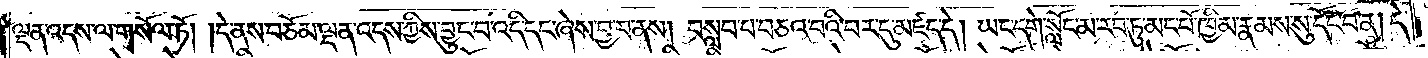ལྡན་འདས་ལ་གསོལ་ཏོ། །དེ་ནས་བཅོམ་ལྡན་འདས་ཀྱིས་བྱུང་བ་འདི་དང་ཞེས་བྱ་བ་ནས། བསླབ་པ་བཅའ་བའི་བར་དུ་མཛད་དེ། ཡང་དགེ་སློང་མ་རབ་ཏུ་མང་པོ་ཁྱིམ་རྣམས་སུ་དོང་བ་ན། དེ་
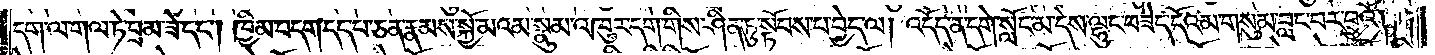དག་ལ་གལ་ཏེ་བྲམ་ཟེ་དང༌། ཁྱིམ་བདག་དད་པ་ཅན་རྣམས་སྐྱོ་མའམ་སྣུམ་འཁུར་དག་གིས་ཤིན་ཏུ་སྟོབས་པ་བྱེད་ལ། འདོད་ན་དགེ་སློང་མ་དེས་ལྷུང་བཟེད་དོའམ་གསུམ་བླང་བར་བྱའོ། །
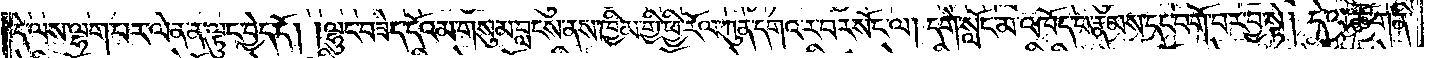དེ་ལས་ལྷག་པར་ལེན་ན་ལྟུང་བྱེད་དོ། །ལྷུང་བཟེད་དོའམ་གསུམ་བླངས་ནས་ཁྱིམ་གྱི་ཕྱིར་རོལ་ཀུན་དགའ་ར་བར་སོང་ལ། དགེ་སློང་མ་འཁོད་པ་རྣམས་དང་བགོ་བར་བྱ་སྟེ། དེ་ལ་ཆོ་ག་ནི་
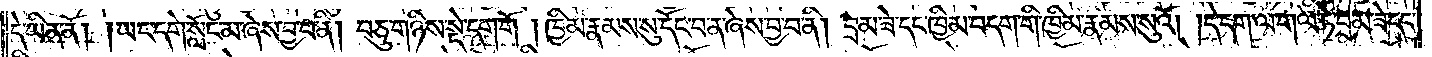དེ་ཡིན་ནོ། །ཡང་དགེ་སློང་མ་ཞེས་བྱ་བ་ནི། བཅུ་གཉིས་སྡེ་དག་གོ །ཁྱིམ་རྣམས་སུ་དོང་བ་ན་ཞེས་བྱ་བ་ནི། བྲམ་ཟེ་དང་ཁྱིམ་བདག་གི་ཁྱིམ་རྣམས་སུའོ། །དེ་དག་ལ་གལ་ཏེ་བྲམ་ཟེ་དང་
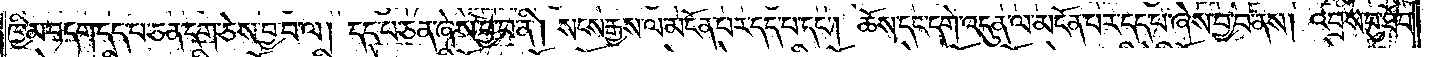ཁྱིམ་བདག་དད་པ་ཅན་དག་ཅེས་བྱ་བ་ལ། དད་པ་ཅན་ཞེས་བྱ་བ་ནི། སངས་རྒྱས་ལ་མངོན་པར་དད་པ་དང༌། ཆོས་དང་དགེ་འདུན་ལ་མངོན་པར་དད་པ་ཞེས་བྱ་བ་ནས། འབྲས་བུ་ཐོབ་
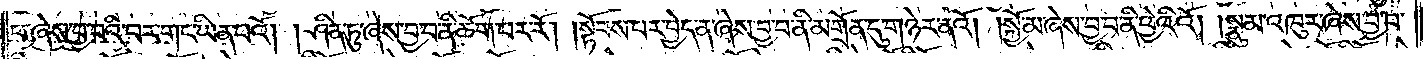པ་ཞེས་བྱ་བའི་བར་གང་ཡིན་པའོ། །ཤིན་ཏུ་ཞེས་བྱ་བ་ནི་ཆོག་པར་རོ། །སྟོབས་པར་བྱེད་ན་ཞེས་བྱ་བ་ནི་མགྲོན་དུ་གཉེར་ནའོ། །སྐྱོ་མ་ཞེས་བྱ་བ་ནི་ཕྱེའིའོ། །སྣུམ་འཁུར་ཞེས་བྱ་བ་
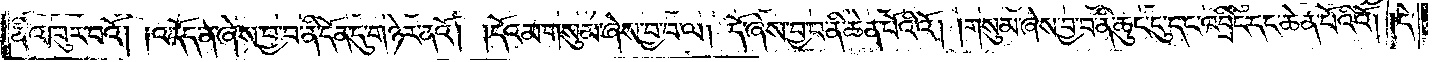ནི་འཁུར་བའོ། །འདོད་ན་ཞེས་བྱ་བ་ནི་དོན་དུ་གཉེར་ནའོ། །དོའམ་གསུམ་ཞེས་བྱ་བ་ལ། དོ་ཞེས་བྱ་བ་ནི་ཆེན་པོའི་འོ། །གསུམ་ཞེས་བྱ་བ་ནི་ཆུང་ངུ་དང་འབྲིང་དང་ཆེན་པོའི་འོ། །དེ་
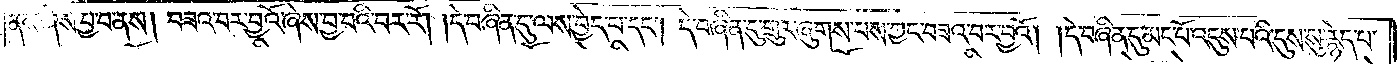ནས་ཞེས་བྱ་བ་ནས། བཟའ་བར་བྱའོ་ཞེས་བྱ་བའི་བར་རོ། །དེ་བཞིན་དུ་ལས་བྱེད་པ་དང༌། དེ་བཞིན་དུ་གྲུར་ཞུགས་པས་ཀྱང་བཟའ་བར་བྱའོ། །དེ་བཞིན་དུ་མང་པོ་འདུས་པའི་དུས་སུ་རྙེད་པ་
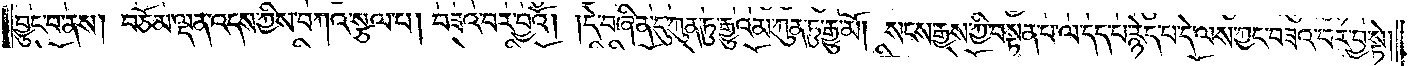བྱུང་བ་ནས། བཅོམ་ལྡན་འདས་ཀྱིས་བཀའ་སྩལ་པ། བཟའ་བར་བྱའོ། །དེ་བཞིན་དུ་ཀུན་ཏུ་རྒྱུའམ་ཀུན་ཏུ་རྒྱུ་མོ། །སངས་རྒྱས་ཀྱི་བསྟན་པ་ལ་དད་པ་རྙེད་པ་དེ་ལས་ཀྱང་བཟའ་བར་བྱ་སྟེ།
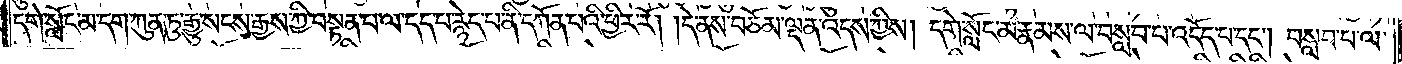དགེ་སློང་མ་དག་ཀུན་ཏུ་རྒྱུ་སངས་རྒྱས་ཀྱི་བསྟན་པ་ལ་དད་པ་རྙེད་པ་ནི་དཀོན་པའི་ཕྱིར་རོ། །དེ་ནས་བཅོམ་ལྡན་འདས་ཀྱིས། དགེ་སློང་མ་རྣམས་ལ་བསླབ་པ་འདོད་པ་དང༌། བསླབ་པ་ལ་
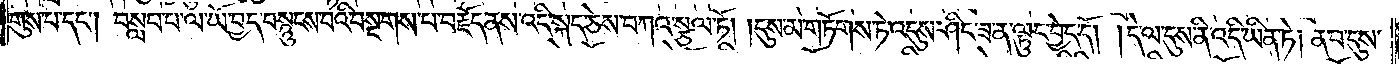གུས་པ་དང༌། བསླབ་པ་ལ་ཡོ་བྱད་བསྙུངས་བའི་བསྔགས་པ་བརྗོད་ནས་འདི་སྐད་ཅེས་བཀའ་སྩལ་ཏོ། །དུས་མ་གཏོགས་ཏེ་འདུས་ཤིང་ཟན་ལྟུང་བྱེད་དོ། །དེ་ལ་དུས་ནི་འདི་ཡིན་ཏེ། ན་བ་དུས་
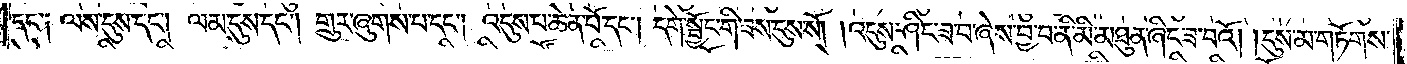དང་༑ ལས་དུས་དང༌། ལམ་དུས་དང༌། གྲུར་ཞུགས་པ་དང༌། འདུས་པ་ཆེན་པོ་དང༌། དགེ་སྦྱོང་གི་ཟས་དུས་སོ། །འདུས་ཤིང་ཟ་བ་ཞེས་བྱ་བ་ནི་མི་མཐུན་ཞིང་ཟ་བའོ། །དུས་མ་གཏོགས་
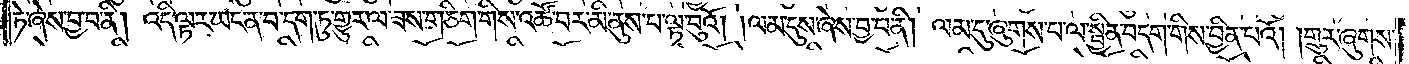ཏེ་ཞེས་བྱ་བ་ནི། འདི་ལྟར་ཡང་ན་བ་དག་ཏུ་གྱུར་ལ་ཟས་གཅིག་གིས་འཚོ་བར་མི་ནུས་པ་ལྟ་བུའོ། །ལམ་དུས་ཞེས་བྱ་བ་ནི། ལམ་དུ་ཞུགས་པ་ལ་སྦྱིན་བདག་གིས་བྱིན་པའོ། །གྲུར་ཞུགས་
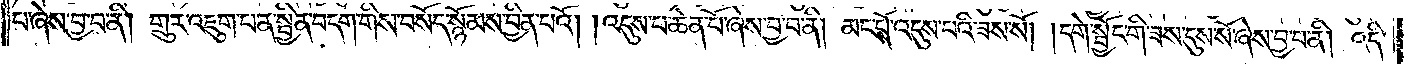པ་ཞེས་བྱ་བ་ནི། གྲུར་འཇུག་པ་ན་སྦྱིན་བདག་གིས་བསོད་སྙོམས་བྱིན་པའོ། །འདུས་པ་ཆེན་པོ་ཞེས་བྱ་བ་ནི། མང་པོ་འདུས་པའི་ཟས་སོ། །དགེ་སྦྱོང་གི་ཟས་དུས་སོ་ཞེས་བྱ་བ་ནི། འདི་
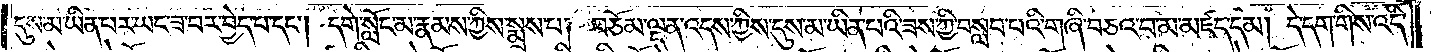དུས་མ་ཡིན་པར་ཡང་ཟ་བར་བྱེད་པ་དང༌། དགེ་སློང་མ་རྣམས་ཀྱིས་སྨྲས་པ། བཅོམ་ལྡན་འདས་ཀྱིས་དུས་མ་ཡིན་པའི་ཟས་ཀྱི་བསླབ་པའི་གཞི་བཅའ་བ་མ་མཛད་དམ། དེ་དག་གིས་འདི་
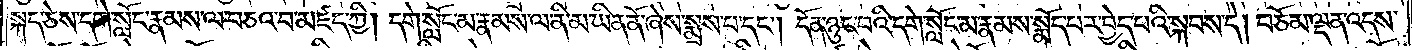སྐད་ཅེས་དགེ་སློང་རྣམས་ལ་བཅའ་བ་མཛད་ཀྱི། དགེ་སློང་མ་རྣམས་ལ་ནི་མ་ཡིན་ནོ་ཞེས་སྨྲས་པ་དང༌། དོན་ཉུང་བའི་དགེ་སློང་མ་རྣམས་སྨོད་པར་བྱེད་པའི་སྐབས་དེ། བཅོམ་ལྡན་འདས་
